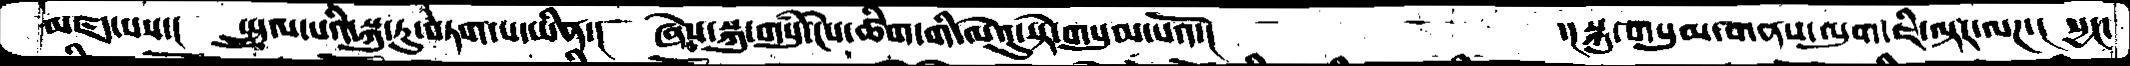མཛད་པས་།  སྤྲུལ་པའི་སྐུ་རུ་བཏག་པ་ཡིན་།  ཞེས་སྐུ་གསུཾ་ངེས་ཚིག་གི་ལེའུ་སྟེ་གསུམ་པའོ་།          ་།སྐུ་གསུམ་གནས་ལུག་ཇི་ལྟར་ལཌ་།  པྱང་
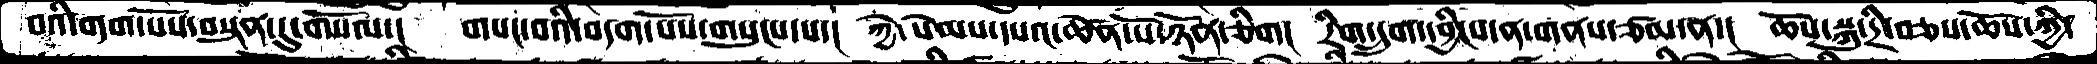བའི་བདག་པོས་བསྟན་དུ་གསོལ་།   གསང་བའི་བདག་པོས་གསུངས་པ་།  ཀྱེ་ སེམས་དཔའ་ཆེན་པོ་ཉོན་ཅིག།  རིག་དྲུག་དབྱིངས་ན་གནས་ཙམ་ན་།  ཆོས་སྐུ་དྲི་བཅས་ཆོས་ཀྱི་
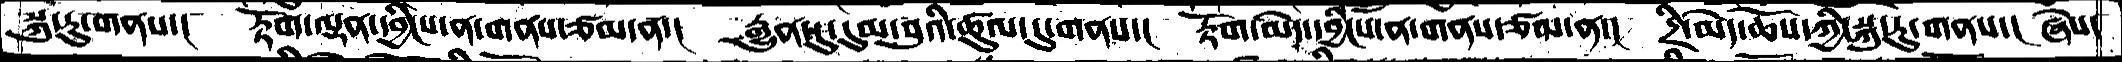སྐུ་རུ་གནས་།  རྟོག་ལྡན་དབྱིངས་ན་གནས་ཙམ་ན་།  རྒྱུན་དུ་དུམ་བུའི་ཚུལ་དུ་གནས་།  རྟོག་མེད་དབྱིངས་ན་གནས་ཙམ་ན་།  དྲི་མེད་ཆོས་ཀྱི་སྐུ་རུ་གནས་།  ཞེས་
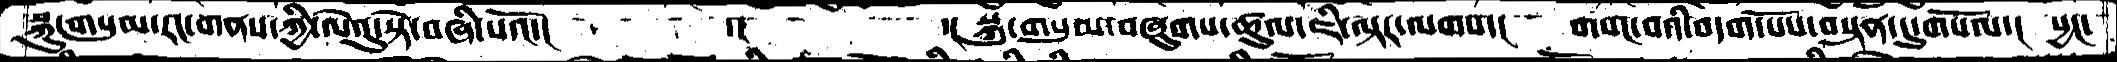སྐུ་གསུམ་རང་གནས་ཀྱི་ལེའུ་སྟེ་བཞི་པའོ་།      ་།     ་། སྐུ་གསུམ་བཞུགས་ཚུལ་ཇི་ལྟར་ལགས་།  གསང་བའི་བདག་པོས་བསྟན་དུ་གསོལ་།  པྱང་
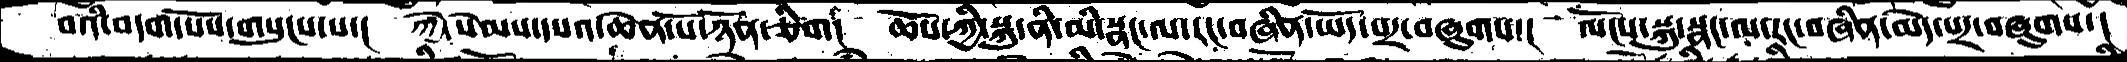བའི་བདག་པོས་གསུངས་པ་།  ཀྱེ་སེམས་དཔའ་ཆེན་པོ་ཉོན་ཅིག།  ཆོས་ཀྱི་སྐུ་ནི་མི་སྣང་ལ་རང་བཞིན་ཡོད་པར་བཞུགས་།  ལོངས་སྐུ་སྣང་ལ་རང་བཞིན་མེད་པར་བཞུགས་།
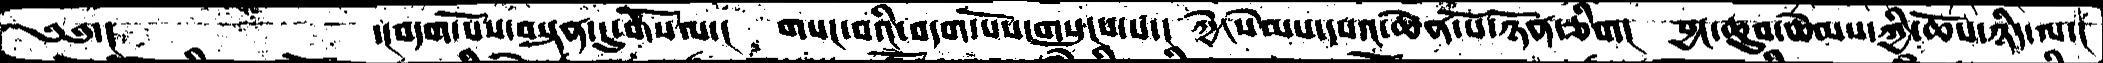༄༅་།       ་།བདག་པོས་བསྟན་དུ་གསོལ་།  གསང་བའི་བདག་པོས་གསུངས་པ་།  ཀྱེ་སེམས་དཔའ་ཆེན་པོ་ཉོན་ཅིག།   བྱང་ཆུབ་སེམས་ཀྱི་ཆོས་ཉིད་ལ་།
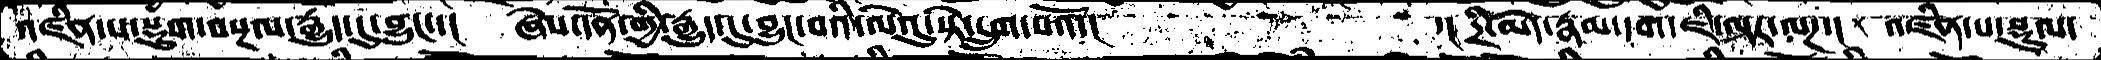འཛིན་པ་སྡུག་བསྔལ་རྒྱུད་དུ་བྱུང་་།  ཞེས་དོན་གྱི་རྒྱུད་དུ་བྱུང་བའི་ལེའུ་སྟེ་དྲུག་པའོ་།          ་། དྲི་མེད་རྣམ་དག་ཇི་ལྟར་ལཌ་།  འཛིན་པ་སྡུལ
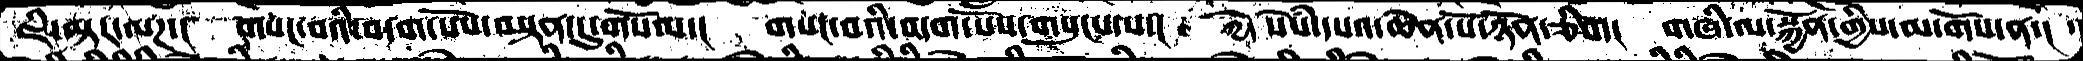ཇི་ལྟར་ལཌ་།  གསང་བའི་བདག་པོས་བསྟན་དུ་གསོལ་།  གསང་བའི་བདག་པོས་གསུངས་པ་།  ཀྱེ་ སེསཾ་དཔའ་ཆེན་པོ་ཉོན་ཅིག།  གཞི་ལ་སྐྱོན་གྱིས་མ་གོས་ན་།  ་
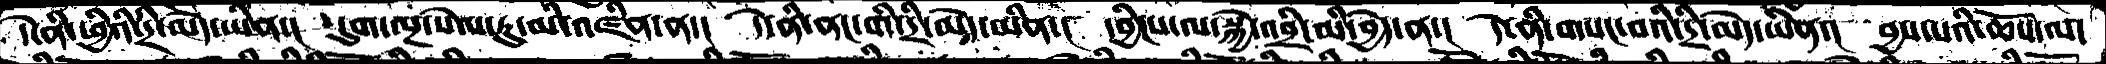དེ་ནི་ཕྱིའི་དྲི་མེད་ཡིན་། དུག་ལྔ་སེལ་ཏུ་མི་འཛིན་ན་། དེ་ནི་ནང་གི་དྲི་མེད་ཡིན་། དབྱིངས་ལ་སྐྱེ་འབྲི་མི་བྱེད་ན་། དེ་ནི་གསང་བའི་དྲི་མེད་ཡིན་། བྱས་པའི་ཆོས་ལ་
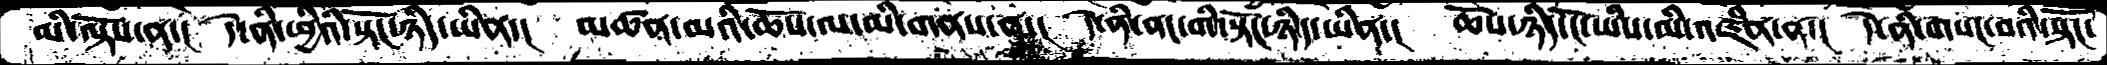མི་ལྟོས་ན་།  དེ་ནི་ཕྱིའི་སྟོང་ཉིད་ཡིན་།  མཚན་མའི་ཆོས་ལ་མི་གནས་ན་།  དེ་ནི་ནང་གི་སྟོང་ཉིད་ཡིན་།  ཆོས་ཉིད་ངོ་ཡིས་མི་འཛིན་ན་།  དེ་ནི་གསང་བའི་སྟོང་
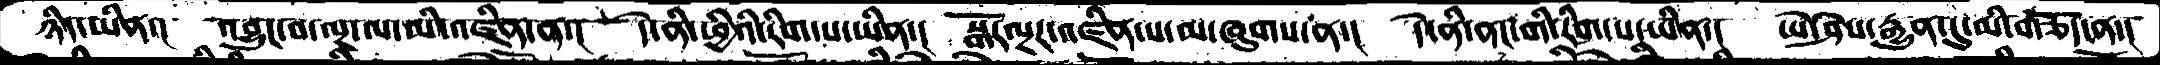ཉིད་ཡིན་།   འབྱུང་བ་ལྔ་ལ་མི་འཛིན་ན་།  དེ་ནི་ཕྱིའི་རིག་པ་ཡིན་།  སྒོར་ལྔར་འཛིན་པ་མ་ཞུགས་ན་།  དེ་ནི་ནང་གི་རིག་པ་ཡིན་།  ཡེ་ཤེས་རྒྱུན་དུ་མི་གཅོད་ན་།
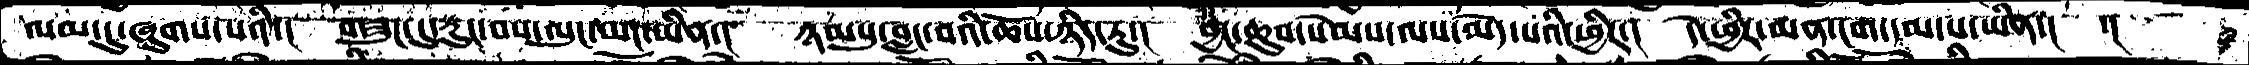ལམ་དུ་ཞུགས་པའི་།   གཟུང་དུ་རུང་བས་ལུང་ཡང་ཡིན་།  ཉམསུ་བླང་བའི་ཆོས་ཉིད་ཏུ་།   བྱང་ཆུབ་སེམས་ལས་མེད་པའི་ཕྱིར་།  དེ་ཕྱིར་མན་ངག་དམ་པ་ཡིན་།     ་།
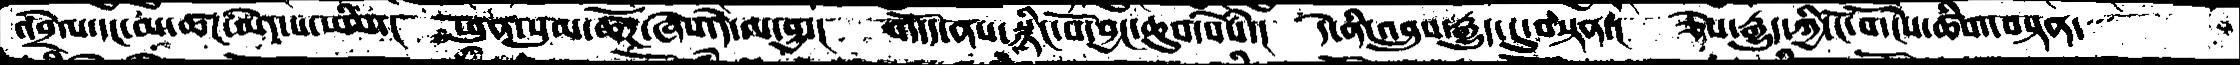འབྲེལ་དང་མ་ཚང་མེད་པ་ཡིས་།  ཕུན་སུམ་ཚོཌ་ཞེས་དེ་ལ་བྱ་།  གདོད་ནས་སྙིང་པོ་བྱང་ཆུབ་སེཾས་།  དེ་ནི་འབྲུས་རྒྱུད་དུ་བསྟན་།  ཅེས་རྒྱུད་ཀྱི་ངོ་བོ་ངེས་ཚིག་བསྟན་
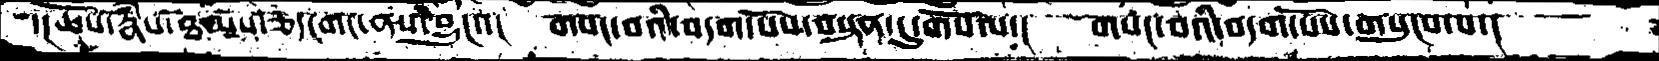་།ཆོས་རྣཾས་ཐམས་ཅད་གང་ནས་བྱུང་་།   གསང་བའི་བདག་པོས་བསྟན་དུ་གསོལ་།  གསང་བའི་བདག་པོས་གསུངས་པ་།
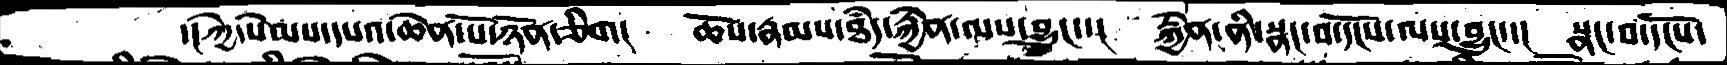་།ཀྱེ་སེམས་དཔའ་ཆེན་པོ་ཉོན་ཅིག།   ཆོས་རྣམས་ཐཾད་རྐྱེན་ལས་བྱུང་།  རྐྱེན་ནི་སྣང་བ་དངོས་ལས་བྱུང་་།  སྣང་བ་དངོས་
